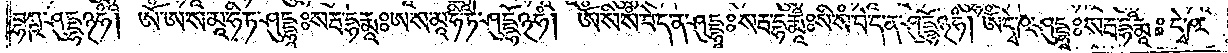བྷཀྵ་ཤུདྡྷ྅ཧཾ། ཨོཾ་ཨ་ས་མཱ་ཧི་ཏ་ཤུདྡྷཱཿསརྦ་དྷརྨཱཿཨ་ས་མཱ་ཧི་ཏེ་ཤུདྡྷོ྅ཧཾ། ཨོཾ་སི་སཾ་བེ་ད་ན་ཤུདྡྷཱཿསརྦ་དྷརྨཱཿསི་སཾ་བེ་ད་ན་ཤུདྡྷོ྅ཧཾ། ཨོཾ་དྭེ་ཥ་ཤུདྡྷཱཿསརྦ་དྷརྨཱཿདྭེ་ཥ་
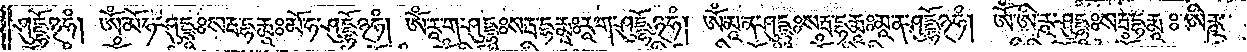ཤུདྡྷོ྅ཧཾ། ཨོཾ་མོ་ཧ་ཤུདྡྷཱཿསརྦ་དྷརྨཱཿམོ་ཧ་ཤུདྡྷོ྅ཧཾ། ཨོཾ་རཱ་ག་ཤུདྡྷཱཿསརྦ་དྷརྨཱཿརཱ་ག་ཤུདྡྷོ྅ཧཾ། ཨོཾ་མཱ་ན་ཤུདྡྷཱཿསརྦ་དྷརྨཱཿམཱ་ན་ཤུདྡྷོ྅ཧཾ། ཨོཾ་ཨི་ཪྵ་ཤུདྡྷཱཿསརྦ་དྷརྨཱཿཨིཪྵ་
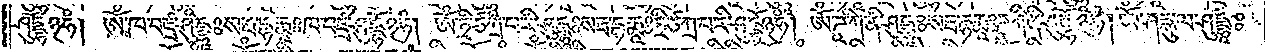ཤུདྡྷོ྅ཧཾ། ཨོཾ་ཁ་བཛྲ་ཤུདྡྷཱཿསརྦ་དྷརྨཱཿཁ་བཛྲ་ཤུདྡྷོ྅ཧཾ། ཨོཾ་ཏྲི་ཙ་ཀྲ་པ་རི་ཤུདྡྷཱཿསརྦ་དྷརྨཱཿཏྲི་ཙ་ཀྲ་པ་རི་ཤུདྡྷོ྅ཧཾ། ཨོཾ་ཌཱ་ཀི་ནི་ཤུདྡྷཱཿསརྦ་དྷརྨཱཿཌཱ་ཀི་ནི་ཤུདྡྷོ྅ཧཾ། ཨོཾ་ཤདྐུ་ལ་ཤུདྡྷཱཿ
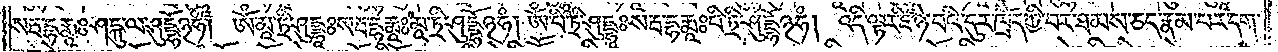སརྦ་དྷརྨཱཿཤདྐུ་ལ་ཤུདྡྷོ྅ཧཾ། ཨོཾ་མཱ་ཏྲི་ཤུདྡྷཱཿ སརྦ་དྷརྨཱཿམཱ་ཏྲི་ཤུདྡྷོ྅ཧཾ། ཨོཾ་པི་ཏྲི་ཤུདྡྷཱཿ སརྦ་དྷརྨཱཿཔི་ཏྲི་ཤུདྡྷོ྅ཧཾ། འདི་ལྟར་ཇི་ཉེ་བའི་དུར་ཁྲོད་ཀྱི་བར་ཐམས་ཅད་རྣམ་པར་དག་
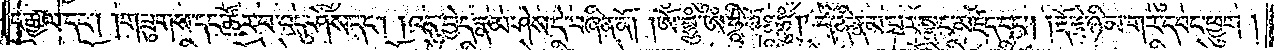ང་རྒྱལ་དང༌། །གཟུགས་དང་ཚོར་བ་འདུ་ཤེས་དང༌། །འདུ་བྱེད་རྣམ་ཤེས་དེ་བཞིན་ནོ། །ཨོཾ་བྷྲུཾ་ཨོཾ་ཧྲཱིཾ་ཧོཿཧཱུཾ། དེ་ནི་རྣམ་པར་སྣང་མཛད་དང༌། །རྡོ་རྗེ་ཉི་མ་གར་དབང་ཕྱུག །
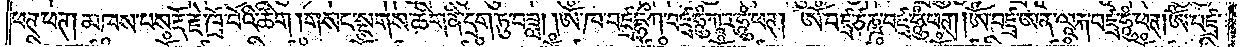ཕཊ་ཕཊ། མཁས་པས་རྡོ་རྗེ་ཁྲོ་བོའི་ཚིག །གསང་སྔགས་ཚིག་ནི་དྲག་ཏུ་བཟླ། །ཨོཾ་ཁ་བཛྲ་དྷྲྀཀ་བཛྲ་ཧཱུཾ་ཀཱ་ར་ཧཱུཾ་ཕཊ། ཨོཾ་བཛྲ་ཙཎྜ་བཛྲ་ཧཱུཾ་ཕཊ། །ཨོཾ་བཛྲ་ཨ་ན་ལཱ་རྐ་བཛྲ་ཧཱུཾ་ཕཊ། ཨོཾ་བཛྲ་
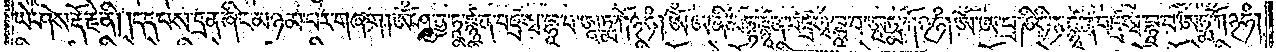ཡེ་ཤེས་རྡོ་རྗེ་ནི། །དད་པས་དྲན་ཞིང་མཉམ་པར་གཞག །ཨོཾ་ཤཱུ་ནྱ་ཏཱ་ཛྙཱ་ན་བཛྲ་སྭ་བྷཱ་བ་ཨཱཏྨ་ཀོ྅ཧཾ། ཨོཾ་ཨ་ནི་མིཏྟ་ཛྙཱ་ན་བཛྲ་སྭ་བྷཱ་བ་ཨཱཏྨ་ཀོ྅ཧཾ། ཨོཾ་ཨ་པྲ་ཎི་ཧི་ཏ་ཛྙཱ་ན་བཛྲ་སྭ་བྷཱ་བ་ཨཏྨ་ཀོ྅ཧཾ།
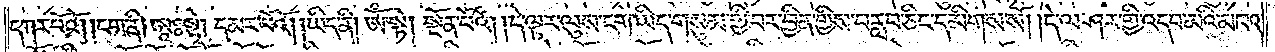དཀར་པོའོ། །ངག་ནི། ཨཱཿསྟེ། དམར་པོའོ། །ཡིད་ནི། ཨོཾ་སྟེ། སྔོན་པོའོ། །དེ་ལྟར་ལུས་ངག་ཡིད་གསུམ་གྱི་བར་བྱིན་གྱིས་བརླབ་ཅིང་དམིགས་སོ། །དེ་ལ་ཤར་གྱི་འདབ་མའི་མཁའ་
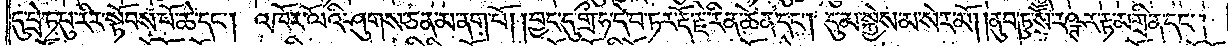དུ་པྲེ་ཏ་པུ་རིར་སྟོབས་པོ་ཆེ་དང༌། འཁོར་ལོའི་ཤུགས་ཅན་མ་ནག་པོ། །བྱང་དུ་གྲྀ་ཧ་དེ་བ་ཏར་རྡོ་རྗེ་རིན་ཆེན་དང༌། དུམ་སྐྱེས་མ་སེར་མོ། །ནུབ་ཏུ་སཽ་རཥྚར་རྟ་མགྲིན་དང༌།
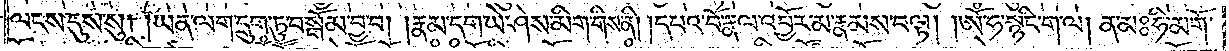ལངས་དུས་སུ། །ཡན་ལག་དྲུག་ཏུ་བསྒོམ་བྱ་བ། །རྣམ་དག་ཡེ་ཤེས་མིག་གིས་ནི། །དཔའ་བོ་རྣལ་འབྱོར་མ་རྣམས་བལྟ། །ཨོཾ་ཧ་སྙིང་ག་ལ། ན་མཿ ཧི་མགོ་
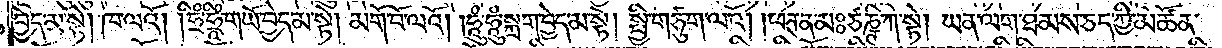བྱེད་མ་སྟེ། ཁ་ལའོ། །ཧྲིཾ་ཧྲཱིཾ་གཡོ་བྱེད་མ་སྟེ། མགོ་བོ་ལའོ། །ཧཱུཾ་ཧཱུཾ་སྐྲག་བྱེད་མ་སྟེ། སྤྱི་གཙུག་ལ་འོ། །ཕཊ་ན་མཿ ཙཎྚི་ཀ་སྟེ། ཡན་ལག་ཐམས་ཅད་ཀྱི་མཚོན་
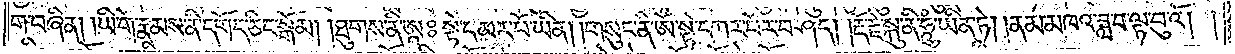ག་བཞིན། །ཡི་གེ་རྣམས་ནི་དགོད་ཅིང་སྒོམ། །ཐུགས་ནི་ཨཱཿ སྟེ་དམར་པོ་ཡིན། །གསུང་ནི་ཨོཾ་སྟེ་དཀར་པོར་བཤད། །རྡོ་རྗེ་སྐུ་ནི་ཧཱུཾ་ཡིན་ཏེ། །ནམ་མཁའ་ཟླ་བ་ལྟ་བུའོ༎
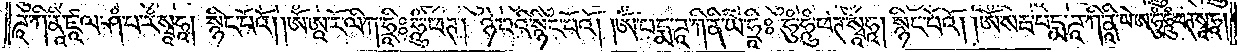ཌཱ་ཀི་ནཱི་ཛཱ་ལ་ཤཾ་པ་རཾ་སྭཱ་ཧཱ། སྙིང་པོའོ། །ཨོཾ་ཨཱ་རོ་ལི་ཀ་ཧྲཱིཿ ཧཱུཾ་ཕཊ། ཉེ་བའི་སྙིང་པོའོ། །ཨོཾ་པདྨ་ཌཱ་ཀི་ནི་ཡེ་ཧྲཱིཿ ཧུཾ་ཧཱུཾ་ཕཊ་སྭཱ་ཧཱ། སྙིང་པོའོ། །ཨོཾ་སརྦ་པདྨ་ཌཱ་ཀི་ནཱི་ཡེ་ཨ་ཧུཾ་ཧཱུཾ་ཕཊ་སྭཱ་ཧཱ།
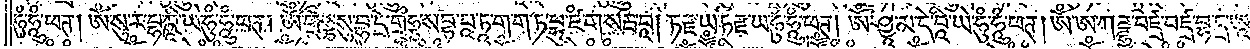ཧུཾ་ཧཱུཾ་ཕཊ། ཨོཾ་སུ་ར་བྷ་ཀྵཱི་ཡེ་ཧུཾ་ཧཱུཾ་ཕཊ། ཨོཾ་གྲྀཧྞ་སུ་བྷ་དྲེ་གྲྀཧྞ་སབྟ་པཱ་ཏཱ་ག་ག་ཏ་བྷུ་ཛཾ་ག་སརྦ་བཱ། ཏརྫ་ཡ་ཏ་རྫ་ཡ་ཧུཾ་ཧཱུཾ་ཕཊ། ཨོཾ་ཤྱཱ་མ་དེ་བཱི་ཡེ་ཧུཾ་ཧཱུཾ་ཕཊ། ཨོཾ་ཨ་ཀཌྜྷྱ་བཛྲ་བཛྲ་བྷ་དྲ་ཨཱ་
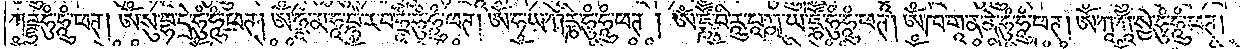ཀཌྜྷྱ་ཧུཾ་ཧཱུཾ་ཕཊ། ཨོཾ་སུ་བྷ་དྲེ་ཧུཾ་ཧཱུཾ་ཕཊ། ཨོཾ་ཧྲཱྀ་མ་ཧཱ་བྷཻ་ར་བ་ཧྲཱཾ་ཧུཾ་ཧཱུཾ་ཕཊ། ཨོཾ་ཧ་ཡ་ཀརྞེ་ཧུཾ་ཧཱུཾ་ཕཊ། ཨོཾ་ཛྞཽཾ་བི་རཱུ་པཱཀྵ་ཡེ་ཛྞཽཾ་ཧུཾ་ཧཱུཾ་ཕཊ། ཨོཾ་ཁ་གཱ་ན་ནེ་ཧུཾ་ཧཱུཾ་ཕཊ། ཨོཾ་ཀཱ་ཀཱ་སྱེ་ཧཱུཾ་ཧཱུཾ་ཕཊ།
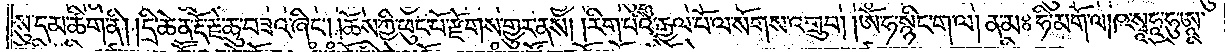སུ་དམ་ཚིག་ནི། །དྲི་ཆེན་རྡོ་རྗེ་ཆུ་བཟའ་ཞིང༌། །ཆོས་ཀྱི་ཕུང་པོ་རྫོགས་གྱུར་ནས། །རིག་པའི་རྒྱལ་པོ་ལ་སོགས་འགྲུབ། །ཨོཾ་ཧ་སྙིང་ག་ལ། ན་མཿ ཧི་མགོ་ལ། ཥ་སྭཱ་ཧཱ་ཧུ་ཨཱ་
